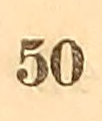50
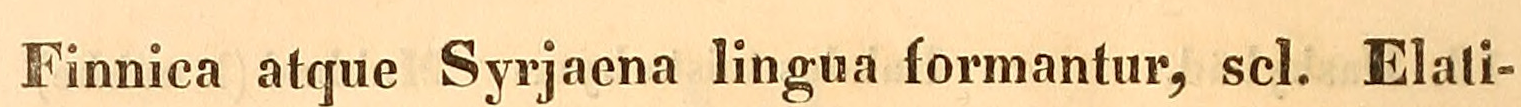Finnica atque Syrjaena lingua formantur, scl. Elati-
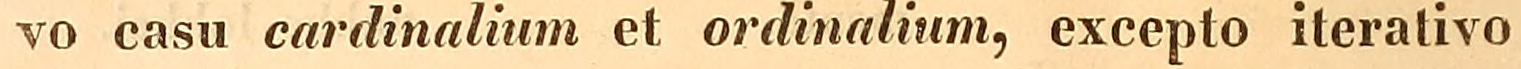vo casu cardinalium et ordinalium, excepto iterativo
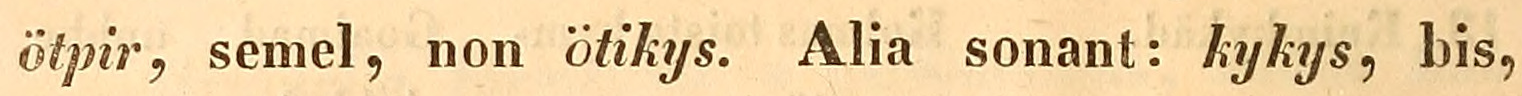ötpir, semel, non ötikys. Alia sonant: kykys, bis,
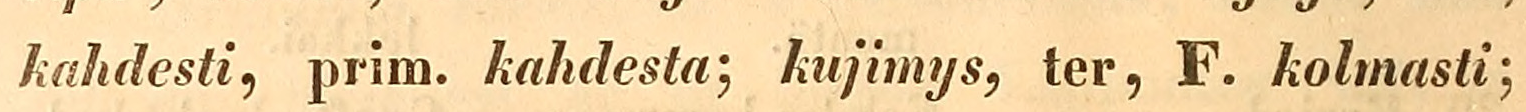kahdesti, prim. kahdesta; kujimys, ter, F. kolmasti;
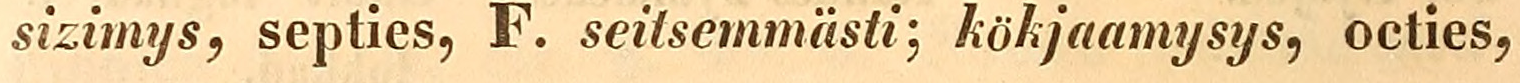sizimys, septies, F. seitsemmästi; kökjaamysys, octies,
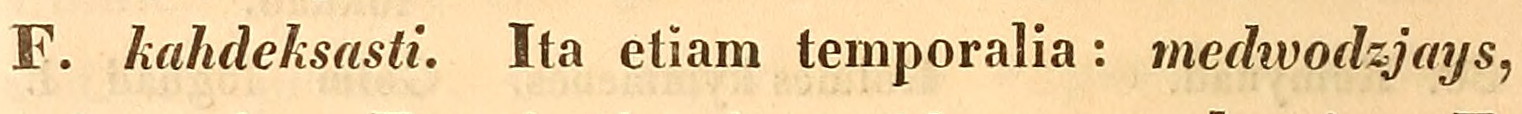F. kahdeksasti. Ita etiam temporalia: medwodzjays,
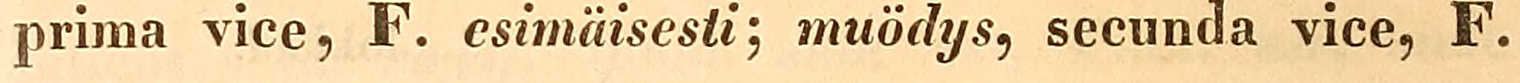prima vice, F. esimäisesti; muödys, secunda vice, F.
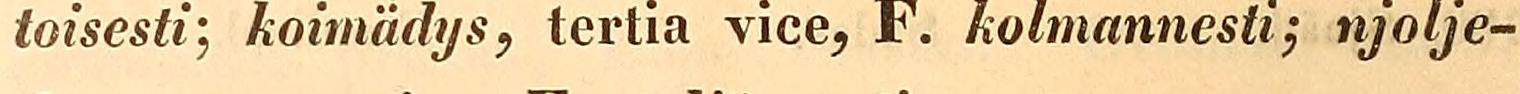toisesti; koimädys, tertia vice, F. kolmannesti; njolje-
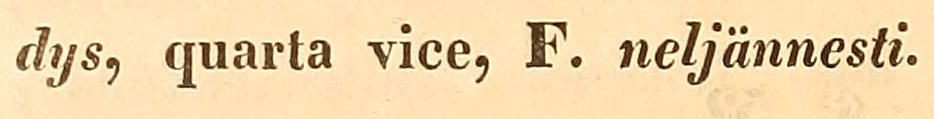dys, quarta vice, F. neljännesti.
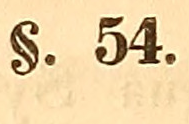§. 54.
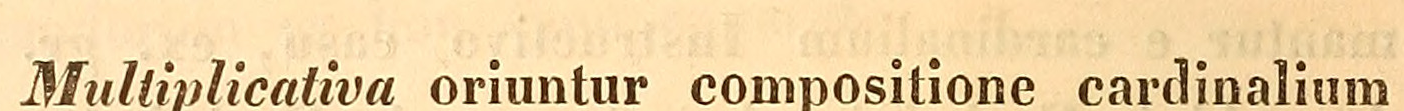Multiplicativa oriuntur compositione cardinalium
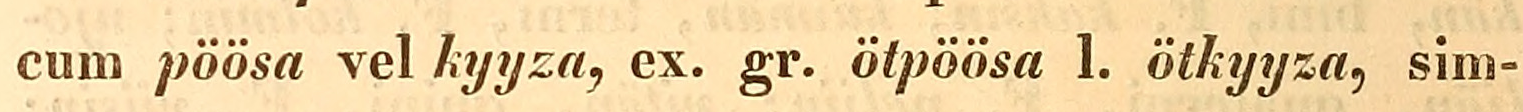cum pöösa vel kyyza, ex. gr. ötpöösa l. ötkyyza, sim-
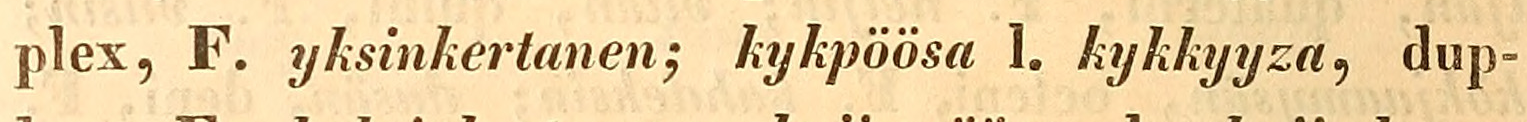plex, F. yksinkertanen; kykpöösa l. kykkyyza, dup-
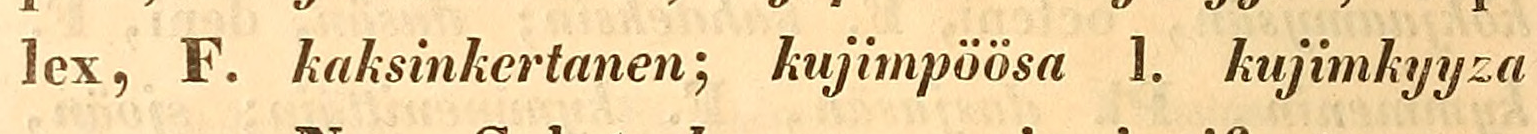lex, F. kaksinkertanen; kujimpöösa l. kujimkyyza
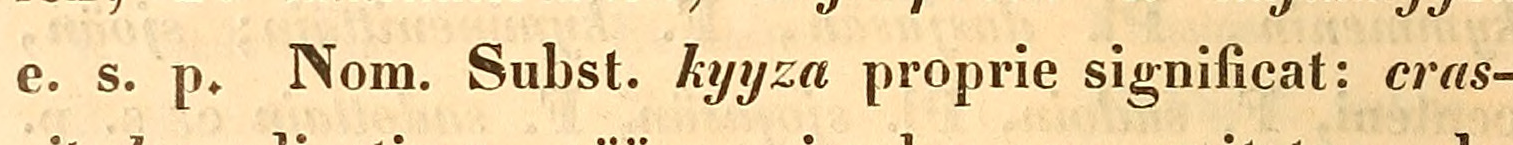e. s. p. Nom. Subst. kyyza proprie significat: cras-
